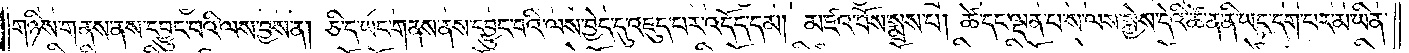གཉིས་གནས་ནས་དབྱུང་བའི་ལས་བྱས་ན། ཅི་ད་ཡང་གནས་ནས་དབྱུང་བའི་ལས་བྱེད་དུ་འཇུད་པར་འདོད་དམ། མཛའ་བོས་སྨྲས་པ། ཚེ་དང་ལྡན་པ་ས་ལས་སྐྱེས་དེའི་ཚེ་ན་ནི་ཡང་དག་པར་མ་ཡིན་
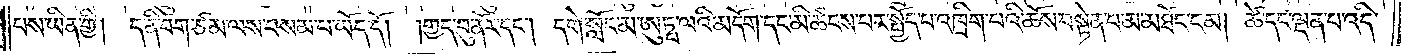པས་ཡིན་གྱི། ད་ནི་བག་ཙམ་ལས་བསམ་པ་ཡོད་དོ།  །གྱད་བུ་ནོར་དང༌། དགེ་སློང་མ་ཨུཏྤ་ལའི་མདོག་དང་མི་ཚངས་པར་སྤྱོད་པ་འཁྲིག་པའི་ཆོས་བསྟེན་པ་མ་མཐོང་ངམ། ཚེ་དང་ལྡན་པ་འདི་
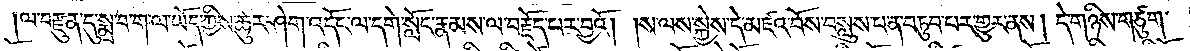ལ་བརྫུན་དུ་སྨྲ་བ་ག་ལ་ཡོད་ཀྱིས་ཚུར་ཤེག་འདོང་ལ་དགེ་སློང་རྣམས་ལ་བརྗོད་པར་བྱའོ། །ས་ལས་སྐྱེས་དེ་མཛའ་བོས་བསླུས་པ་ན་བཏུབ་པར་གྱུར་ནས། དེ་གཉིས་གཙུག་
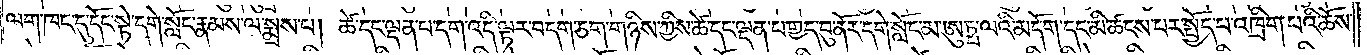ལག་ཁང་དུ་དོང་སྟེ་དགེ་སློང་རྣམས་ལ་སྨྲས་པ། ཚེ་དང་ལྡན་པ་དག་འདི་ལྟར་བདག་ཅག་གཉིས་ཀྱིས་ཚེ་དང་ལྡན་པ་གྱད་བུ་ནོར་དགེ་སློང་མ་ཨུཏྤ་ལའི་མདོག་དང་མི་ཚངས་པར་སྤྱོད་པ་འཁྲིག་པའི་ཆོས་
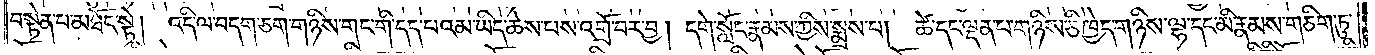བསྟན་པ་མཐོང་སྟེ། འདི་ལ་བདག་ཅག་གཉིས་གང་གི་དད་པའམ་ཡིད་ཆེས་པས་འགྲོ་བར་བྱ། དགེ་སློང་རྣམས་ཀྱིས་སྨྲས་པ། ཚེ་དང་ལྡན་པ་གཉིས་ཅི་ཁྱེད་གཉིས་ལྷ་དང་མི་རྣམས་གཅིག་ཏུ་
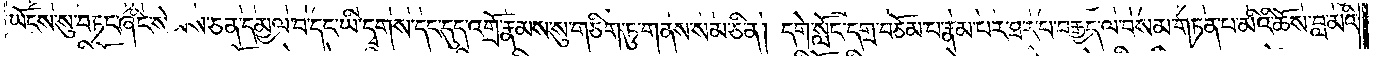ཡོངས་སུ་བཏང་ཞིང་སེམས་ཅན་དམྱལ་བ་དང་ཡི་དྭགས་དང་དུད་འགྲོ་རྣམས་སུ་གཅིག་ཏུ་གནས་སམ་ཅི་ན། དགེ་སློང་དགྲ་བཅོམ་པ་རྣམ་པར་ཐར་པ་བརྒྱད་ལ་བསམ་གཏན་པ་མིའི་ཆོས་བླ་མའི་
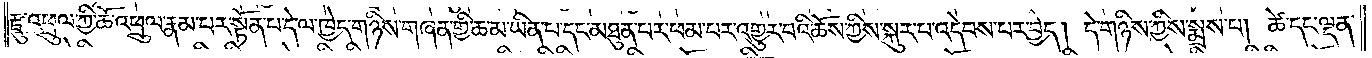རྫུ་འཕྲུལ་གྱི་ཆོ་འཕྲུལ་རྣམ་པར་སྟོན་པ་དེ་ལ་ཁྱེད་གཉིས་གཞན་གྱི་ཆ་མ་ཡིན་པ་དང་མཐུན་པར་ཕམ་པར་འགྱུར་བའི་ཆོས་ཀྱིས་སྐུར་བ་འདེབས་པར་བྱེད། དེ་གཉིས་ཀྱིས་སྨྲས་པ། ཚེ་དང་ལྡན་
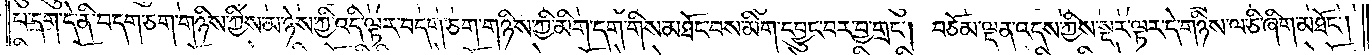པ་དག་དེ་ནི་བདག་ཅག་གཉིས་ཀྱིས་མཉེས་ཀྱི་འདི་ལྟར་བདག་ཅག་གཉིས་ཀྱི་མིག་དག་གིས་མཐོང་བས་མིག་དབྱུང་བར་བྱ་གྲང༌། བཅོམ་ལྡན་འདས་ཀྱིས་སྔར་ལྟར་དེ་གཉིས་ལ་ཅི་ཞིག་མཐོང༌།
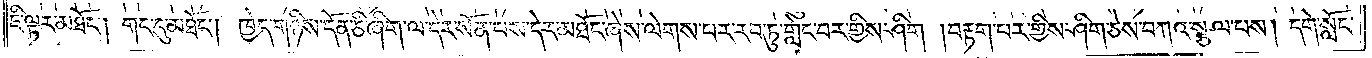ཇི་ལྟར་མཐོང༌། གང་དུ་མཐོང༌། ཁྱེད་གཉིས་དོན་ཅི་ཞིག་ལ་དེར་སོན་པས་དེར་མཐོང་ཞེས་ལེགས་པར་རབ་ཏུ་གླེང་བར་གྱིས་ཤིག །བརྟག་པར་གྱིས་ཤིག་ཅེས་བཀའ་སྩལ་པས། དགེ་སློང་
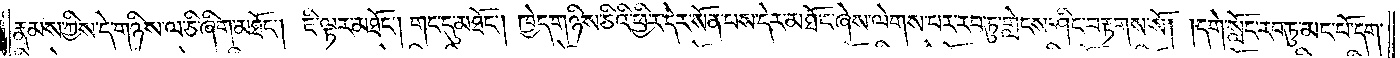རྣམས་ཀྱིས་དེ་གཉིས་ལ་ཅི་ཞིག་མཐོང༌། ཇི་ལྟར་མཐོང༌། གང་དུ་མཐོང༌། ཁྱེད་གཉིས་ཅིའི་ཕྱིར་དེར་སོན་པས་དེར་མཐོང་ཞེས་ལེགས་པར་རབ་ཏུ་གླེངས་ཤིང་བརྟགས་སོ། །དགེ་སློང་རབ་ཏུ་མང་པོ་དག་
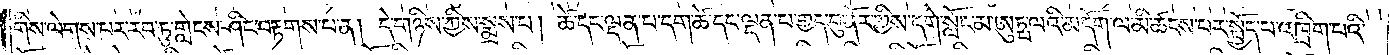གིས་ལེགས་པར་རབ་ཏུ་གླེངས་ཤིང་བརྟགས་པ་ན། དེ་གཉིས་ཀྱིས་སྨྲས་པ། ཚེ་དང་ལྡན་པ་དག་ཚེ་དང་ལྡན་པ་གྱད་བུ་ནོར་གྱིས་དགེ་སློང་མ་ཨུཏྤ་ལའི་མདོག་ལ་མི་ཚངས་པར་སྤྱོད་པ་འཁྲིག་པའི་
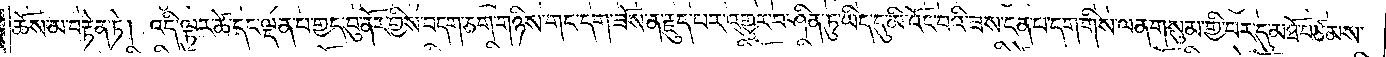ཆོས་མ་བརྟེན་ཏེ། འདི་ལྟར་ཚེ་དང་ལྡན་པ་གྱད་བུ་ནོར་གྱིས་བདག་ཅག་གཉིས་གང་དག་ཟོས་ན་རྗུད་པར་འགྱུར་བ་ཤིན་ཏུ་ཡིད་དུ་མི་འོང་བའི་ཟས་ངན་པ་དག་གིས་ལན་གསུམ་གྱི་བར་དུ་མཐོ་བཙམས་
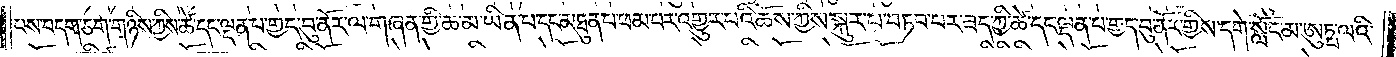པས་བདག་ཅག་གཉིས་ཀྱིས་ཚེ་དང་ལྡན་པ་གྱད་བུ་ནོར་ལ་གཞན་གྱི་ཆ་མ་ཡིན་པ་དང་མཐུན་པ་ཕམ་པར་འགྱུར་པའི་ཆོས་ཀྱིས་སྐུར་བ་བཏབ་པར་ཟད་ཀྱི་ཚེ་དང་ལྡན་པ་གྱད་བུ་ནོར་གྱིས་དགེ་སློང་མ་ཨུཏྤ་ལའི་
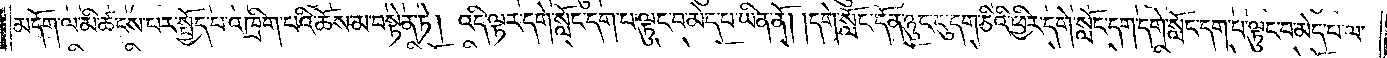མདོག་ལ་མི་ཚངས་པར་སྤྱོད་པ་འཁྲིག་པའི་ཆོས་མ་བསྟེན་ཏེ། འདི་ལྟར་དགེ་སློང་དག་པ་ལྟུང་བ་མེད་པ་ཡིན་ནོ། །དགེ་སློང་དོན་ཉུང་ངུ་དག་ཅིའི་ཕྱིར་དགེ་སློང་དག་དགེ་སློང་དག་པ་ལྟུང་བ་མེད་པ་ལ་
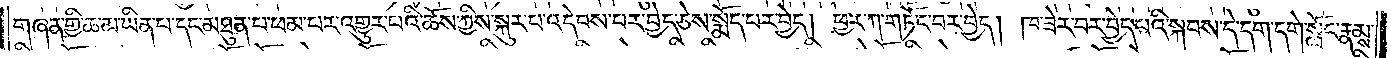གཞན་གྱི་ཆ་མ་ཡིན་པ་དང་མཐུན་པ་ཕམ་པར་འགྱུར་པའི་ཆོས་ཀྱིས་སྐུར་པ་འདེབས་པར་བྱེད་ཅེས་སྨོད་པར་བྱེད། ཕྱར་ཀ་གཏོང་བར་བྱེད། ཁ་ཟེར་བར་བྱེད་པའི་སྐབས་དེ་དག་དགེ་སློང་རྣམས་
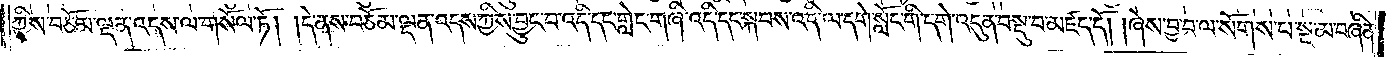ཀྱིས་བཅོམ་ལྡན་འདས་ལ་གསོལ་ཏོ། །དེ་ནས་བཅོམ་ལྡན་འདས་ཀྱིས་བྱུང་བ་འདི་དང་གླེང་གཞི་འདི་དང་སྐབས་འདི་ལ་དགེ་སློང་གི་དགེ་འདུན་བསྡུ་བ་མཛད་དོ། །ཞེས་བྱ་བ་ལ་སོགས་པ་སྔ་མ་བཞིན་
